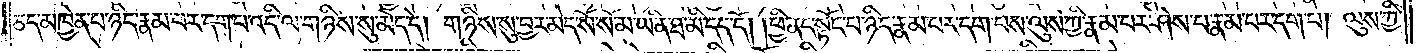ཅད་མཁྱེན་པ་ཉིད་རྣམ་པར་དག་པ་འདི་ལ་གཉིས་སུ་མེད་དེ། གཉིས་སུ་བྱར་མེད་སོ་སོ་མ་ཡིན་ཐ་མི་དད་དོ། །ཕྱི་ནང་སྟོང་པ་ཉིད་རྣམ་པར་དག་པས་ལུས་ཀྱི་རྣམ་པར་ཤེས་པ་རྣམ་པར་དག་པ། ལུས་ཀྱི་
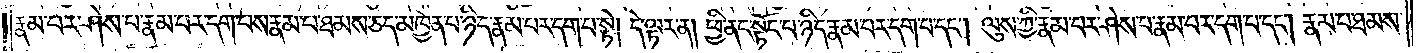རྣམ་པར་ཤེས་པ་རྣམ་པར་དག་པས་རྣམ་པ་ཐམས་ཅད་མཁྱེན་པ་ཉིད་རྣམ་པར་དག་པ་སྟེ། དེ་ལྟར་ན། ཕྱི་ནང་སྟོང་པ་ཉིད་རྣམ་པར་དག་པ་དང༌། ལུས་ཀྱི་རྣམ་པར་ཤེས་པ་རྣམ་པར་དག་པ་དང༌། རྣམ་པ་ཐམས་
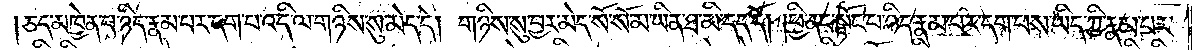ཅད་མཁྱེན་པ་ཉིད་རྣམ་པར་དག་པ་འདི་ལ་གཉིས་སུ་མེད་དེ། གཉིས་སུ་བྱར་མེད་སོ་སོ་མ་ཡིན་ཐ་མི་དད་དོ། །ཕྱི་ནང་སྟོང་པ་ཉིད་རྣམ་པར་དག་པས་ཡིད་ཀྱི་རྣམ་པར་
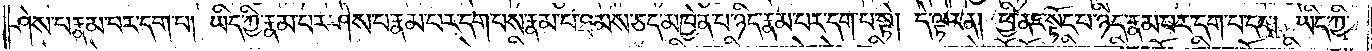ཤེས་པ་རྣམ་པར་དག་པ། ཡིད་ཀྱི་རྣམ་པར་ཤེས་པ་རྣམ་པར་དག་པས་རྣམ་པ་ཐམས་ཅད་མཁྱེན་པ་ཉིད་རྣམ་པར་དག་པ་སྟེ། དེ་ལྟར་ན། ཕྱི་ནང་སྟོང་པ་ཉིད་རྣམ་པར་དག་པ་དང༌། ཡིད་ཀྱི་
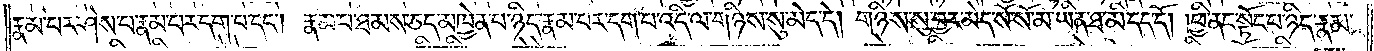རྣམ་པར་ཤེས་པ་རྣམ་པར་དག་པ་དང༌། རྣམ་པ་ཐམས་ཅད་མཁྱེན་པ་ཉིད་རྣམ་པར་དག་པ་འདི་ལ་གཉིས་སུ་མེད་དེ། གཉིས་སུ་བྱར་མེད་སོ་སོ་མ་ཡིན་ཐ་མི་དད་དོ། །ཕྱི་ནང་སྟོང་པ་ཉིད་རྣམ་
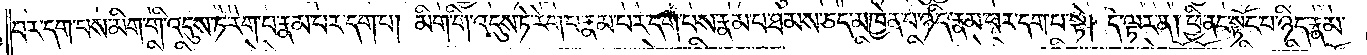པར་དག་པས་མིག་གི་འདུས་ཏེ་རེག་པ་རྣམ་པར་དག་པ། མིག་གི་འདུས་ཏེ་རེག་པ་རྣམ་པར་དག་པས་རྣམ་པ་ཐམས་ཅད་མཁྱེན་པ་ཉིད་རྣམ་པར་དག་པ་སྟེ། དེ་ལྟར་ན། ཕྱི་ནང་སྟོང་པ་ཉིད་རྣམ་
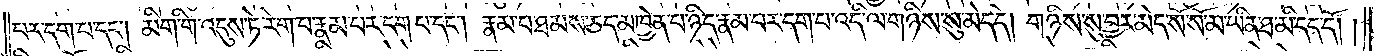པར་དག་པ་དང༌། མིག་གི་འདུས་ཏེ་རེག་པ་རྣམ་པར་དག་པ་དང༌། རྣམ་པ་ཐམས་ཅད་མཁྱེན་པ་ཉིད་རྣམ་པར་དག་པ་འདི་ལ་གཉིས་སུ་མེད་དེ། གཉིས་སུ་བྱར་མེད་སོ་སོ་མ་ཡིན་ཐ་མི་དད་དོ། །
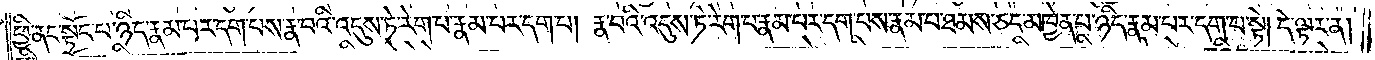ཕྱི་ནང་སྟོང་པ་ཉིད་རྣམ་པར་དག་པས་རྣ་བའི་འདུས་ཏེ་རེག་པ་རྣམ་པར་དག་པ། རྣ་བའི་འདུས་ཏེ་རེག་པ་རྣམ་པར་དག་པས་རྣམ་པ་ཐམས་ཅད་མཁྱེན་པ་ཉིད་རྣམ་པར་དག་པ་སྟེ། དེ་ལྟར་ན།
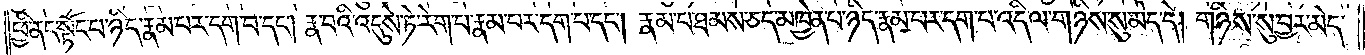ཕྱི་ནང་སྟོང་པ་ཉིད་རྣམ་པར་དག་པ་དང༌། རྣ་བའི་འདུས་ཏེ་རེག་པ་རྣམ་པར་དག་པ་དང༌། རྣམ་པ་ཐམས་ཅད་མཁྱེན་པ་ཉིད་རྣམ་པར་དག་པ་འདི་ལ་གཉིས་སུ་མེད་དེ། གཉིས་སུ་བྱར་མེད་
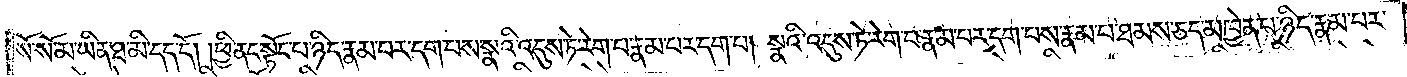སོ་སོ་མ་ཡིན་ཐ་མི་དད་དོ། །ཕྱི་ནང་སྟོང་པ་ཉིད་རྣམ་པར་དག་པས་སྣའི་འདུས་ཏེ་རེག་པ་རྣམ་པར་དག་པ། སྣའི་འདུས་ཏེ་རེག་པ་རྣམ་པར་དག་པས་རྣམ་པ་ཐམས་ཅད་མཁྱེན་པ་ཉིད་རྣམ་པར་
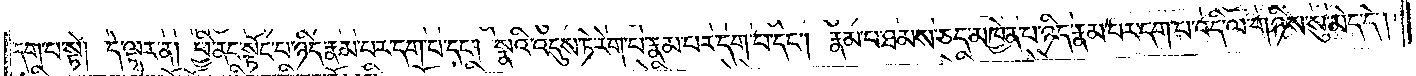དག་པ་སྟེ། དེ་ལྟར་ན། ཕྱི་ནང་སྟོང་པ་ཉིད་རྣམ་པར་དག་པ་དང༌། སྣའི་འདུས་ཏེ་རེག་པ་རྣམ་པར་དག་པ་དང༌། རྣམ་པ་ཐམས་ཅད་མཁྱེན་པ་ཉིད་རྣམ་པར་དག་པ་འདི་ལ་གཉིས་སུ་མེད་དེ།
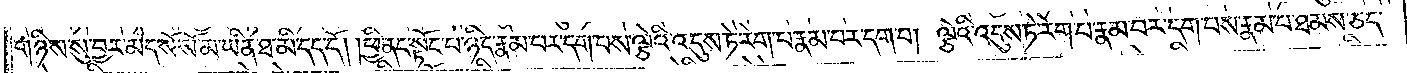གཉིས་སུ་བྱར་མེད་སོ་སོ་མ་ཡིན་ཐ་མི་དད་དོ། །ཕྱི་ནང་སྟོང་པ་ཉིད་རྣམ་པར་དག་པས་ལྕེའི་འདུས་ཏེ་རེག་པ་རྣམ་པར་དག་པ། ལྕེའི་འདུས་ཏེ་རེག་པ་རྣམ་པར་དག་པས་རྣམ་པ་ཐམས་ཅད་
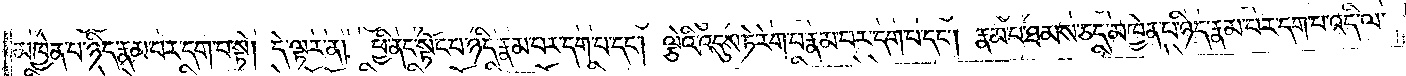མཁྱེན་པ་ཉིད་རྣམ་པར་དག་པ་སྟེ། དེ་ལྟར་ན། ཕྱི་ནང་སྟོང་པ་ཉིད་རྣམ་པར་དག་པ་དང༌། ལྕེའི་འདུས་ཏེ་རེག་པ་རྣམ་པར་དག་པ་དང༌། རྣམ་པ་ཐམས་ཅད་མཁྱེན་པ་ཉིད་རྣམ་པར་དག་པ་འདི་ལ་
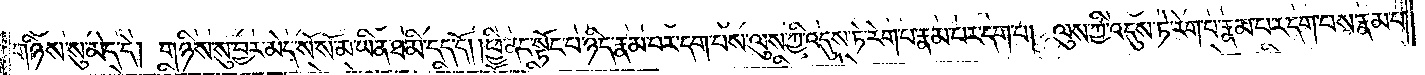གཉིས་སུ་མེད་དེ། གཉིས་སུ་བྱར་མེད་སོ་སོ་མ་ཡིན་ཐ་མི་དད་དོ། །ཕྱི་ནང་སྟོང་པ་ཉིད་རྣམ་པར་དག་པས་ལུས་ཀྱི་འདུས་ཏེ་རེག་པ་རྣམ་པར་དག་པ། ལུས་ཀྱི་འདུས་ཏེ་རེག་པ་རྣམ་པར་དག་པས་རྣམ་པ་
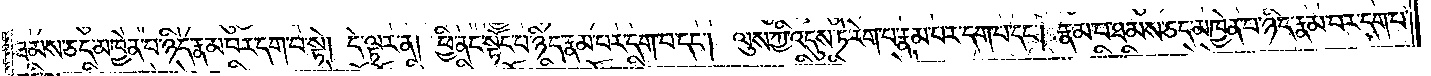ཐམས་ཅད་མཁྱེན་པ་ཉིད་རྣམ་པར་དག་པ་སྟེ། དེ་ལྟར་ན། ཕྱི་ནང་སྟོང་པ་ཉིད་རྣམ་པར་དག་པ་དང༌། ལུས་ཀྱི་འདུས་ཏེ་རེག་པ་རྣམ་པར་དག་པ་དང༌། རྣམ་པ་ཐམས་ཅད་མཁྱེན་པ་ཉིད་རྣམ་པར་དག་པ་
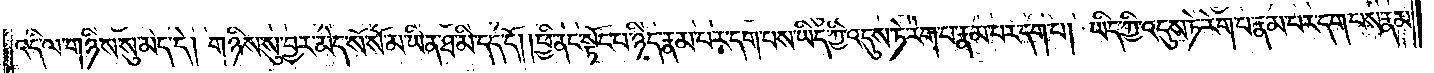འདི་ལ་གཉིས་སུ་མེད་དེ། གཉིས་སུ་བྱར་མེད་སོ་སོ་མ་ཡིན་ཐ་མི་དད་དོ། །ཕྱི་ནང་སྟོང་པ་ཉིད་རྣམ་པར་དག་པས་ཡིད་ཀྱི་འདུས་ཏེ་རེག་པ་རྣམ་པར་དག་པ། ཡིད་ཀྱི་འདུས་ཏེ་རེག་པ་རྣམ་པར་དག་པས་རྣམ་
